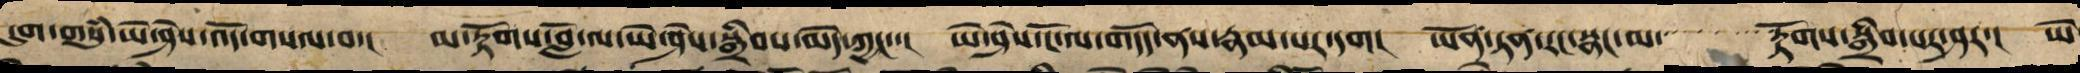དུག་གསུཾ་ཡེ་ཤེས་འོད་གསལ་བ་། མ་རྟོགས་བློ་ལ་ཡེ་ཤེས་སྒྲིབས་མེད་ཀྱང་་། ཡེ་ཤེས་ངོ་ལ་གདོད་ནས་རྣམ་པར་དག། ཡོན་ཏན་རང་སྣང་མ་་་་་་་རྟོགས་སྒྲིབ་པར་ཤར་། ཡེ
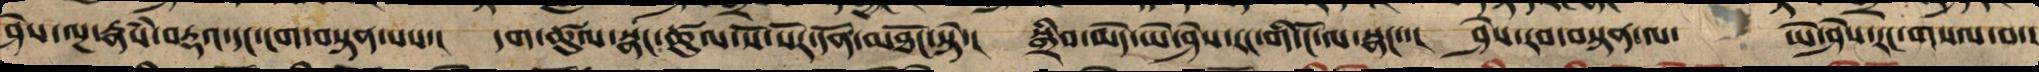ཤེས་ལྔ་རྣཾས་བརྡའ་དང་ངག་བསྟན་པས་། དག་ཚུལ་སྣང་ཚུལ་སོ་སོར་དོན་མཐོང་སྟེ་། སྒྲིབ་མེད་ཡེ་ཤེས་རང་གི་ངོ་ལ་སྣང་་།  ཤེས་རབ་བསྟན་ལ་  ཡེ་ཤེས་རང་གསལ་བ་།
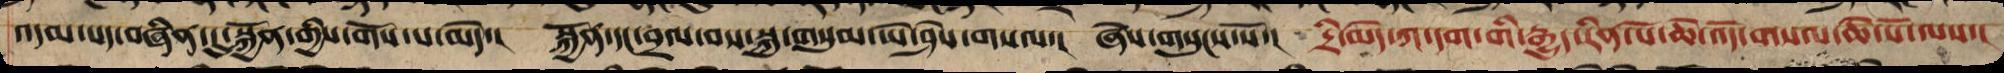འདམ་པད་བཞིན་དུ་སྐྱོན་གྱིས་གོས་པ་མེད་། སྐྱོན་དང་བྲལ་བས་སྐུ་གསུམ་ཡེ་ཤེས་གསལ་། ཞེས་གསུངས་སོ་།  དྲི་མེད་ཀ་དག་གི་རྒྱུད་རིན་པོ་ཆེ་འོད་གསལ་ཆེན་པོ་ལས་།
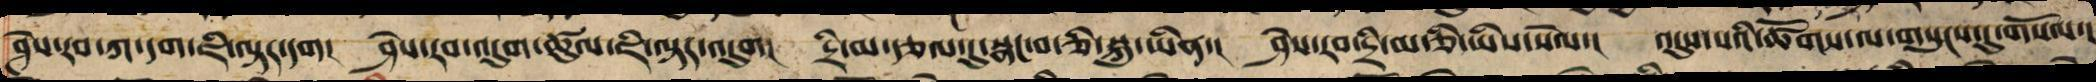ཤེས་རབ་ཀ་དག་ཇི་ལྟར་དག། ཤེས་རབ་འདུག་ཚུལ་ཇི་ལྟར་འདུག།  དྲི་མ་རྩལ་དུ་སྣང་བ་ཅི་སྐུ་ཡིན་།  ཤེས་རབ་དྲི་མ་ཅི་ཡིས་སེལ་། འདུས་པའི་ཚོགས་ལ་གསུང་དུ་གསོལ་།
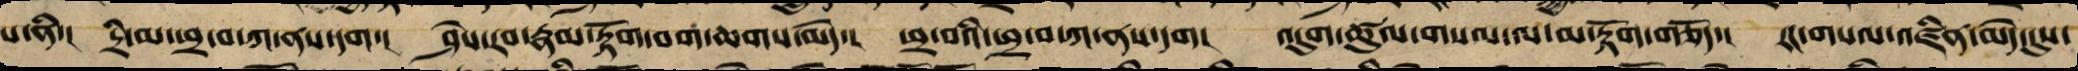པ་ནི་། དྲི་མ་ཕྲ་བ་ཀ་ནས་དག་། ཤེས་རབ་རྣམ་རྟོག་བག་ཆགས་མེད་། ཕྲ་བའི་ཕྲ་བ་ཀ་ནས་དག། འདུག་ཚུལ་གསལ་ལ་མ་རྟོག་གཅོད་། རང་གསལ་འཛིན་མེད་དུས་
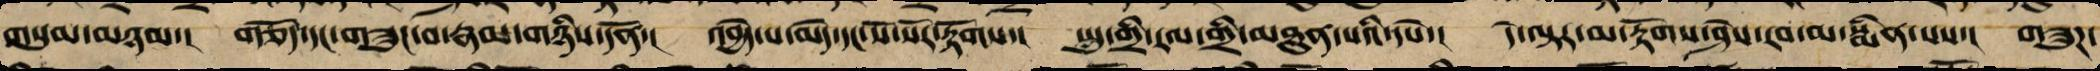གསུམ་མཉམ་། གཅོད་དང་གཟུང་བ་རྣམ་གཉིས་དོན་། འབྱེད་པ་མེད་དང་སོ་སོར་རྟོགས་། སྤུ་གྲི་རལ་གྲི་མཐུན་པའི་དཔེ་། དེ་ལྟར་མ་རྟོགས་ཤེས་རབ་མ་སྨིན་པས་། གཟུཌ་
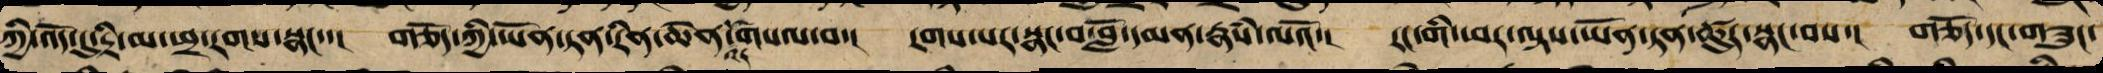ཀྱི་འོད་དུ་དྲི་མ་ཕྲ་རགས་སྣང་་། གཅོད་ཀྱི་ཡོན་ཏན་རིན་ཆེན་གསལ་བ་། རགས་པར་སྣང་བ་བློ་དམན་རྣཾས་ལའོ་། རང་གི་ཕར་ལྟས་ཡོན་ཏན་ཚུར་སྣང་བས་། གཅོད་དང་གཟུང་
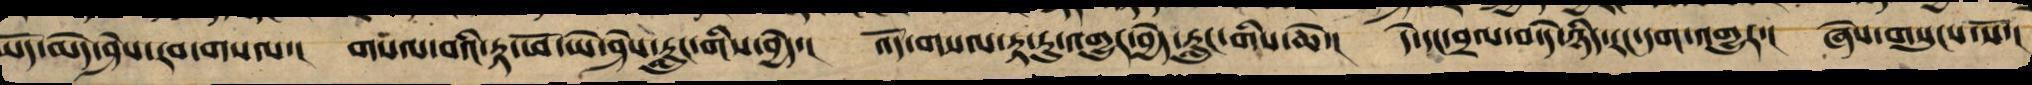ཡོད་མེད་ཤེས་རབ་གསལ་། གསལ་བའི་རྟ་ཕོ་ཡེ་ཤེས་རླུང་གིས་བྱེད་། འོད་གསལ་རྟ་རུ་འགྱུར་བྱེད་རླུང་གིས་ཆེ་། དེ་དང་བྲལ་བ་དེ་ཉིད་རང་དག་འགྱུར་། ཞེས་གསུངས་སོ་།
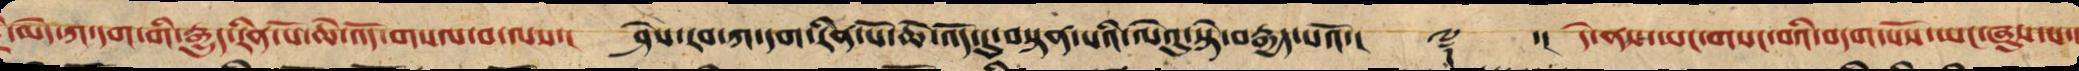་མེད་ཀ་དག་གི་རྒྱུད་རིན་པོ་ཆེ་འོད་གསལ་བ་ལས་། ཤེས་རབ་ཀ་དག་རིན་པོ་ཆེ་འོད་དུ་བསྟན་པའི་ལེའུ་སྟེ་བརྒྱད་པའོ་།། ༈ ་། དེ་ནས་ཡང་གསང་བའི་བདག་པོས་ཡང་ཞུས་པ་།
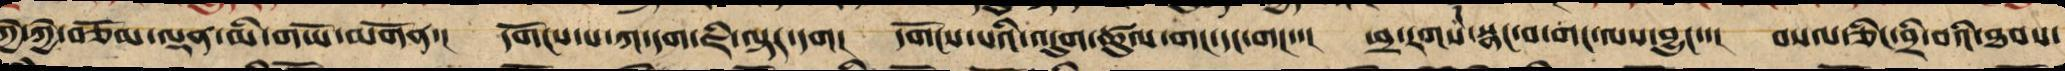ཀྱེ་ཀྱེ་བཅོམ་ལྡན་མི་གཡོ་མགོན་། དགོངས་པ་ཀ་དག་ཇི་ལྟར་དག། དགོངས་པའི་འདུག་ཚུལ་གང་དང་གང་་། ཕྲ་རགས་སྣང་བ་གང་ལས་བྱུང་་། བསལ་ཞིང་བྲི་བའི་ཐབས་
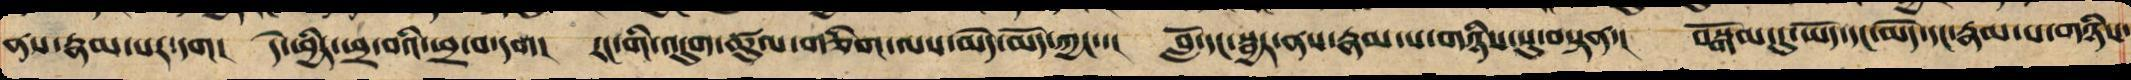ནས་རྣམ་པར་དག། དེ་ཕྱིར་ཕྲ་བའི་ཕྲ་བ་དག། རང་གི་འདུག་ཚུལ་གཅིག་ལས་མེད་མོད་ཀྱང་་། བློ་དང་སྦྱར་ནས་རྣམ་པ་གཉིས་སུ་བསྟན་། བསྒོམ་དུ་ཡོད་དང་མེད་དང་རྣམ་པ་གཉིས་
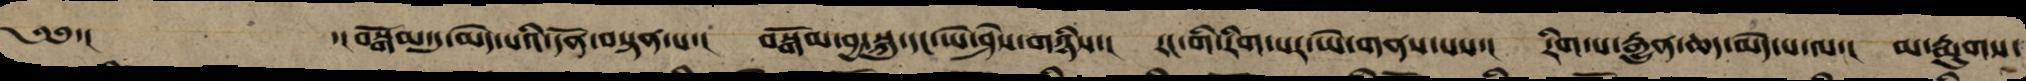༄༅་། ་།བསྒོམ་དུ་མེད་པའི་དོན་བསྟན་པ་། བསྒོམ་བྱ་སྐུ་དང་ཡེ་ཤེས་གཉིས་། རང་གི་རིག་པར་ཡེ་གནས་པས་། རིག་པ་རྒྱུན་ཆད་མེད་པ་ལ་། མ་རྨུགས་
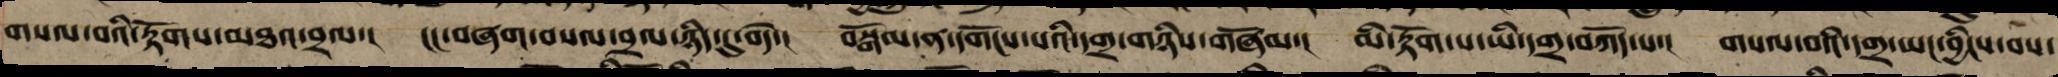གསལ་བའི་རྟོགས་མཐའ་བྲལ་། ངང་བཞག་བསམ་བྲལ་ཉིད་དུ་བདེ་། བསྒོམ་ན་དགོངས་པའི་དགྲ་གཉིས་གཞོམ་། མི་རྟོག་པ་ཡི་དགྲ་བཀོད་པ་། གསལ་བའི་དགྲ་ཡང་བྱིང་བས་
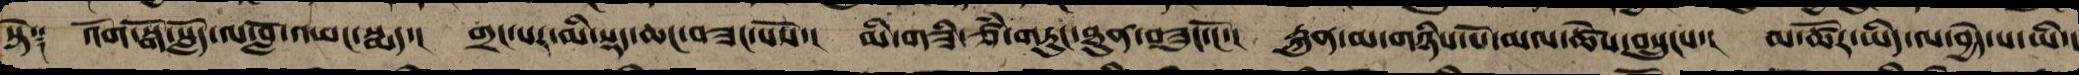སྟེ༑ འོག་སྒོ་སློད་ལ་བློ་འཕང་སྨད་། གྲང་སར་མི་སྡད་ཆང་བཟང་པོ་། མི་གཟི་ཙཾ་གཏུང་ཐུན་བཟུང་ངོ་། རྐུན་མ་གཉིས་པོ་མལ་ཚེས་བསྲུངས་། མ་ཚོར་ཡིད་ལ་བྱེད་པ་ཡི་།
